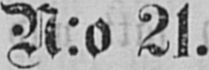N:o 21.
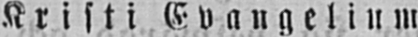Kristi Evangelium
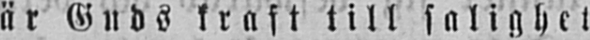är Guds kraft till salighet
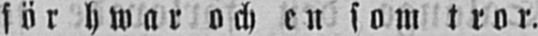för hwar och en som tror.
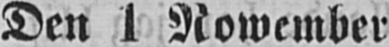Den 1 Nowember
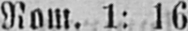Rom. 1: 16
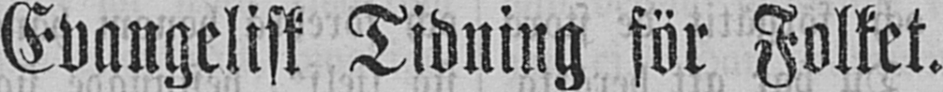Evangelisk Tidning för Folket.
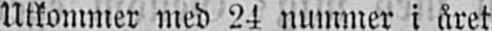Utkommer med 24 nummer i året.
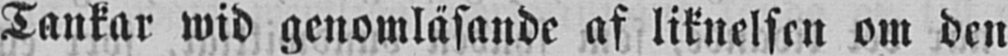Tankar wid genomläsande af liknelsen om den
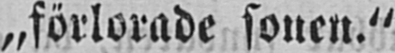„förlorade sonen."
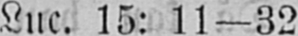Luc. 15: 11 — 32
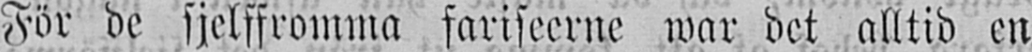För de sjelffromma fariseerne war det alltid en
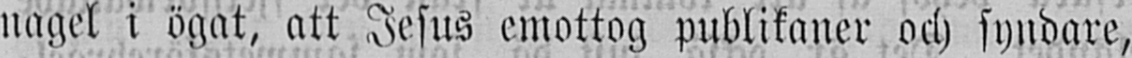nagel i ögat, att Jesus emottog publikaner och syndare,
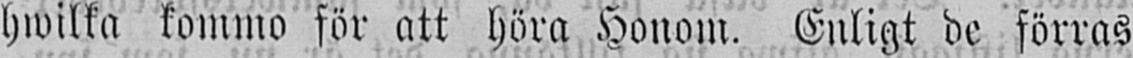hwilka kommo för att höra Honom. Enligt de förras
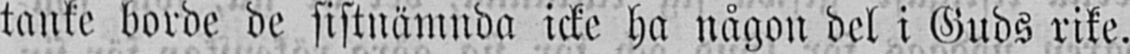tanke borde de sistnämnda icke ha någon del i Guds rike.
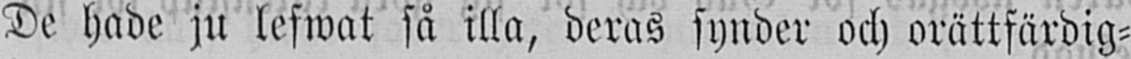De hade ju lefwat så illa, deras synder och orättfärdig-
